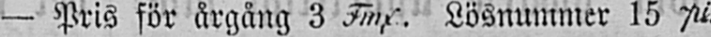— Pris för årgång 3 Fmk. Lösnummer 15 pi.
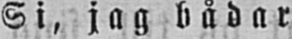Si, jag bådar
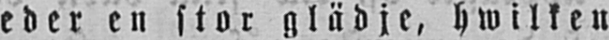eder en stor glädje, hwilken
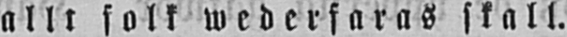allt folk wederfaras skall.
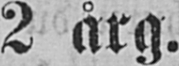2 årg.
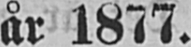år 1877.
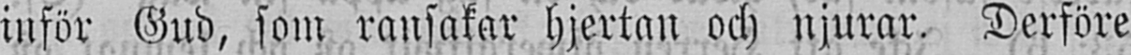inför Gud, som ransakar hjertan och njurar. Derföre
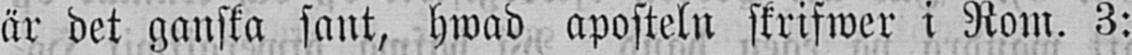är det ganska sant, hwad aposteln skrifwer i Rom. 3:
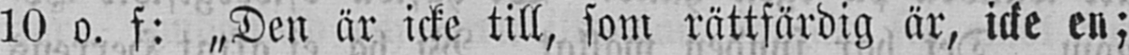10 o. f: „Den är icke till, som rättfärdig är, icke en;
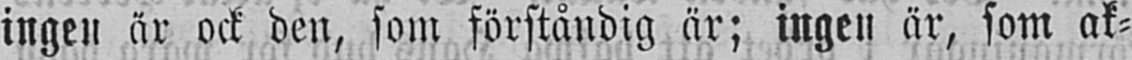ingen är ock den, som förståndig är; ingen är, som ak-
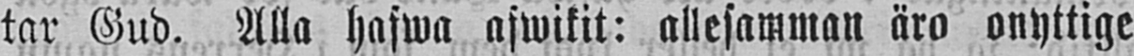tar Gud. Alla hafwa afwikit: allesamman äro onyttige
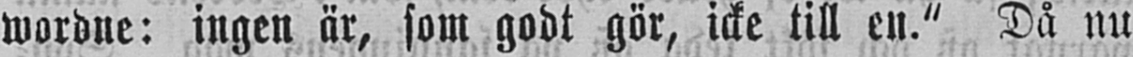wordne: ingen är, som godt gör, icke till en." Då nu
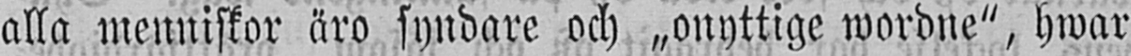alla menniskor äro syndare och „onyttige wordne", hwar
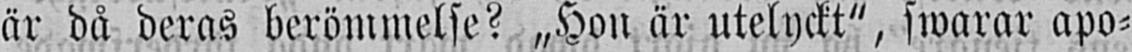är då deras berömmelse? „Hon är utelyckt", swarar apo-
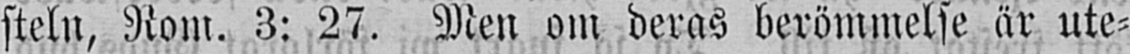steln, Rom. 3: 27. Men om deras berömmelse är ute-
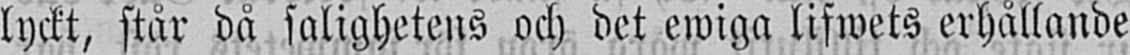lyckt, står då salighetens och det ewiga lifwets erhållande
